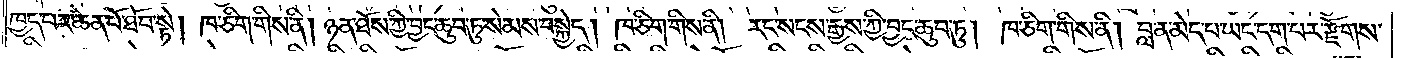ཁྱད་པར་ཆེན་པོ་ཐོབ་སྟེ། ཁ་ཅིག་གིས་ནི། ཉན་ཐོས་ཀྱི་བྱང་ཆུབ་ཏུ་སེམས་བསྐྱེད། ཁ་ཅིག་གིས་ནི། རང་སངས་རྒྱས་ཀྱི་བྱང་ཆུབ་ཏུ། ཁ་ཅིག་གིས་ནི། བླ་ན་མེད་པ་ཡང་དག་པར་རྫོགས་
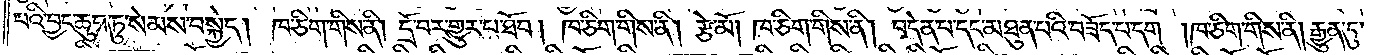པའི་བྱང་ཆུབ་ཏུ་སེམས་བསྐྱེད། ཁ་ཅིག་གིས་ནི། དྲོ་བར་གྱུར་པ་ཐོབ། ཁ་ཅིག་གིས་ནི། རྩེ་མོ། ཁ་ཅིག་གིས་ནི། བདེན་པ་དང་མཐུན་པའི་བཟོད་པ་དག །ཁ་ཅིག་གིས་ནི། རྒྱུན་དུ་
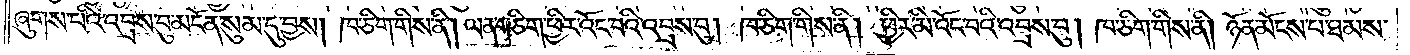ཞུགས་པའི་འབྲས་བུ་མངོན་སུམ་དུ་བྱས། ཁ་ཅིག་གིས་ནི། ལན་གཅིག་ཕྱིར་འོང་བའི་འབྲས་བུ། ཁ་ཅིག་གིས་ནི། ཕྱིར་མི་འོང་བའི་འབྲས་བུ། ཁ་ཅིག་གིས་ནི། ཉོན་མོངས་པ་ཐམས་
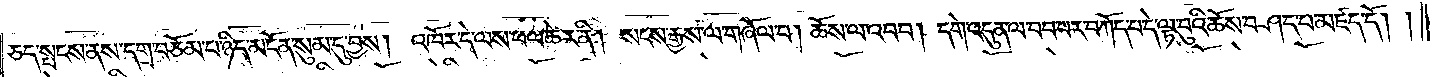ཅད་སྤངས་ནས་དགྲ་བཅོམ་པ་ཉིད་མངོན་སུམ་དུ་བྱས། འཁོར་དེ་ལས་ཕལ་ཆེར་ནི། སངས་རྒྱས་ལ་གཞོལ་བ། ཆོས་ལ་འབབ། དགེ་འདུན་ལ་བབ་པར་བཀོད་པ་དེ་ལྟ་བུའི་ཆོས་བཤད་པ་མཛད་དོ། །
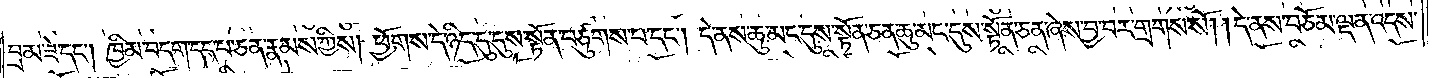བྲམ་ཟེ་དང༌། ཁྱིམ་བདག་དད་པ་ཅན་རྣམས་ཀྱིས། ཕྱོགས་དེ་ཉིད་དུ་དུས་སྟོན་བཙུགས་པ་དང༌། དེ་ནས་ཆུ་མང་དུས་སྟོན་ཅན་ཆུ་མང་དུས་སྟོན་ཅན་ཞེས་བྱ་བར་གྲགས་སོ། །དེ་ནས་བཅོམ་ལྡན་འདས་
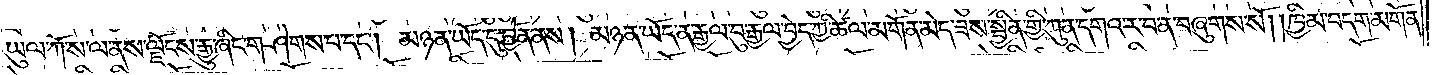ཡུལ་ཀོ་ས་ལ་ནས་ལྗོངས་རྒྱུ་ཞིང་གཤེགས་པ་དང༌། མཉན་ཡོད་དུ་བྱོན་ནས། མཉན་ཡོད་ན་རྒྱལ་བུ་རྒྱལ་བྱེད་ཀྱི་ཚལ་མགོན་མེད་ཟས་སྦྱིན་གྱི་ཀུན་དགའ་ར་བ་ན་བཞུགས་སོ། །ཁྱིམ་བདག་མགོན་
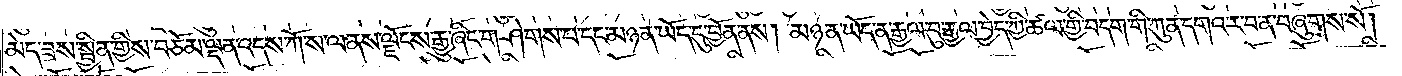མེད་ཟས་སྦྱིན་གྱིས་བཅོམ་ལྡན་འདས་ཀོ་ས་ལ་ནས་ལྗོངས་རྒྱུ་ཞིང་གཤེགས་པ་དང་མཉན་ཡོད་དུ་བྱོན་ནས། མཉན་ཡོད་ན་རྒྱལ་བུ་རྒྱལ་བྱེད་ཀྱི་ཚལ་གྱི་བདག་གི་ཀུན་དགའ་ར་བ་ན་བཞུགས་སོ།
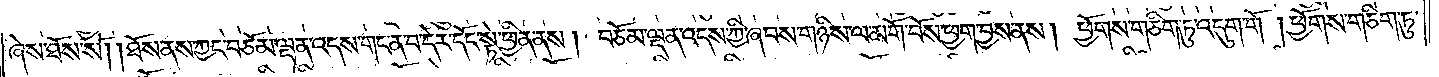ཞེས་ཐོས་སོ། །ཐོས་ནས་ཀྱང་བཅོམ་ལྡན་འདས་གང་ན་བ་དེར་དོང་སྟེ་ཕྱིན་ནས། བཅོམ་ལྡན་འདས་ཀྱི་ཞབས་གཉིས་ལ་མགོ་བོས་ཕྱག་བྱས་ནས། ཕྱོགས་གཅིག་ཏུ་འདུག་གོ །ཕྱོགས་གཅིག་ཏུ་
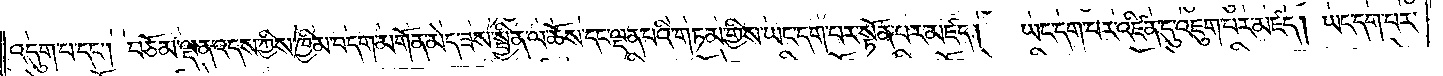འདུག་པ་དང༌། བཅོམ་ལྡན་འདས་ཀྱིས་ཁྱིམ་བདག་མགོན་མེད་ཟས་སྦྱིན་ལ་ཆོས་དང་ལྡན་པའི་གཏམ་གྱིས་ཡང་དག་པར་སྟོན་པར་མཛད། ཡང་དག་པར་འཛིན་དུ་འཇུག་པར་མཛད། ཡང་དག་པར་
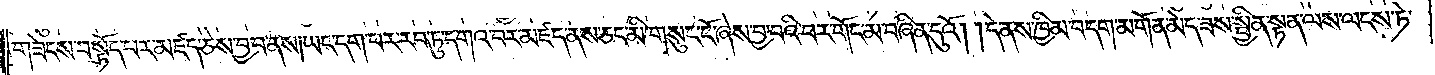གཟེངས་བསྟོད་པར་མཛད་ཅེས་བྱ་བ་ནས། ཡང་དག་པར་རབ་ཏུ་དགའ་བར་མཛད་ནས་ཅང་མི་གསུང་ངོ་ཞེས་བྱ་བའི་བར་གོང་མ་བཞིན་དུའོ། །དེ་ནས་ཁྱིམ་བདག་མགོན་མེད་ཟས་སྦྱིན་སྟན་ལས་ལངས་ཏེ་
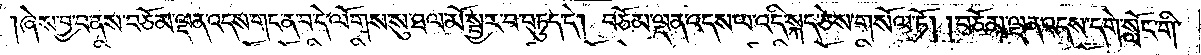ཞེས་བྱ་བ་ནས་བཅོམ་ལྡན་འདས་གང་ན་བ་དེ་ལོགས་སུ་ཐལ་མོ་སྦྱར་བ་བཏུད་དེ། བཅོམ་ལྡན་འདས་ལ་འདི་སྐད་ཅེས་གསོལ་ཏོ། །བཅོམ་ལྡན་འདས་དགེ་སློང་གི་
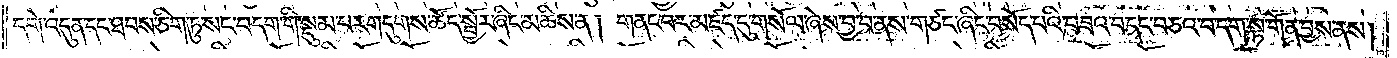དགེ་འདུན་དང་ཐབས་ཅིག་ཏུ་སང་བདག་གི་སྡུམ་པར་གདུགས་ཚོད་སྦྱོར་ཞིང་མཆིས་ན། གནང་བར་མཛད་དུ་གསོལ་ཞེས་བྱ་བ་ནས་གཙང་ཞིང་བསོད་པའི་བཟའ་བ་དང་བཅའ་བ་དག་སྟ་གོན་བྱས་ནས།
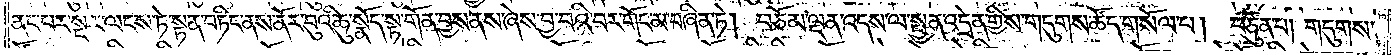ནང་པར་སྔར་ལངས་ཏེ་སྟན་བཏིང་ནས་ནོར་བུའི་ཆུ་སྣོད་སྟ་གོན་བྱས་ནས་ཞེས་བྱ་བའི་བར་གོང་མ་བཞིན་ཏེ། བཅོམ་ལྡན་འདས་ལ་སྤྱན་འདྲེན་གྱིས་གདུགས་ཚོད་གསོལ་པ། བཙུན་པ། གདུགས་
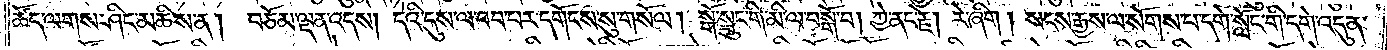ཚོད་ལགས་ཤིང་མཆིས་ན། བཅོམ་ལྡན་འདས། དེའི་དུས་ལ་བབ་པར་དགོངས་སུ་གསོལ། སྒོ་སྲུང་གི་མི་ལ་བསྒོ་བ་ན། ཀྱེ་ནང་རྗེས། རེ་ཞིག། སངས་རྒྱས་ལ་སོགས་པ་དགེ་སློང་གི་དགེ་འདུན་
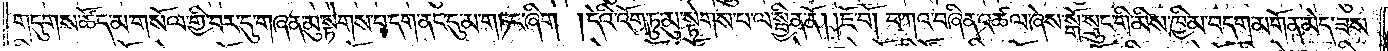གདུགས་ཚོད་མ་གསོལ་གྱི་བར་དུ་གཞན་མུ་སྟེགས་པ་དག་ནང་དུ་མ་གཏང་ཞིག །དེའི་འོག་ཏུ་མུ་སྟེགས་པ་ལ་སྦྱིན་ནོ། །ཇོ་བོ། བཀའ་བཞིན་འཚལ་ཞེས་སྒོ་སྲུང་གི་མིས་ཁྱིམ་བདག་མགོན་མེད་ཟས་
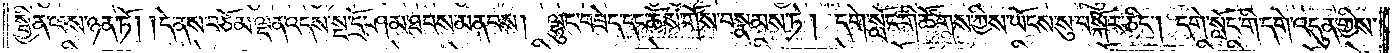སྦྱིན་ལས་ཉན་ཏོ། །དེ་ནས་བཅོམ་ལྡན་འདས་སྔ་དྲོ་ཤམ་ཐབས་མནབས། ལྷུང་བཟེད་དང་ཆོས་གོས་བསྣམས་ཏེ། དགེ་སློང་གི་ཚོགས་ཀྱིས་ཡོངས་སུ་བསྐོར་ཅིང༌། དགེ་སློང་གི་དགེ་འདུན་གྱིས་
